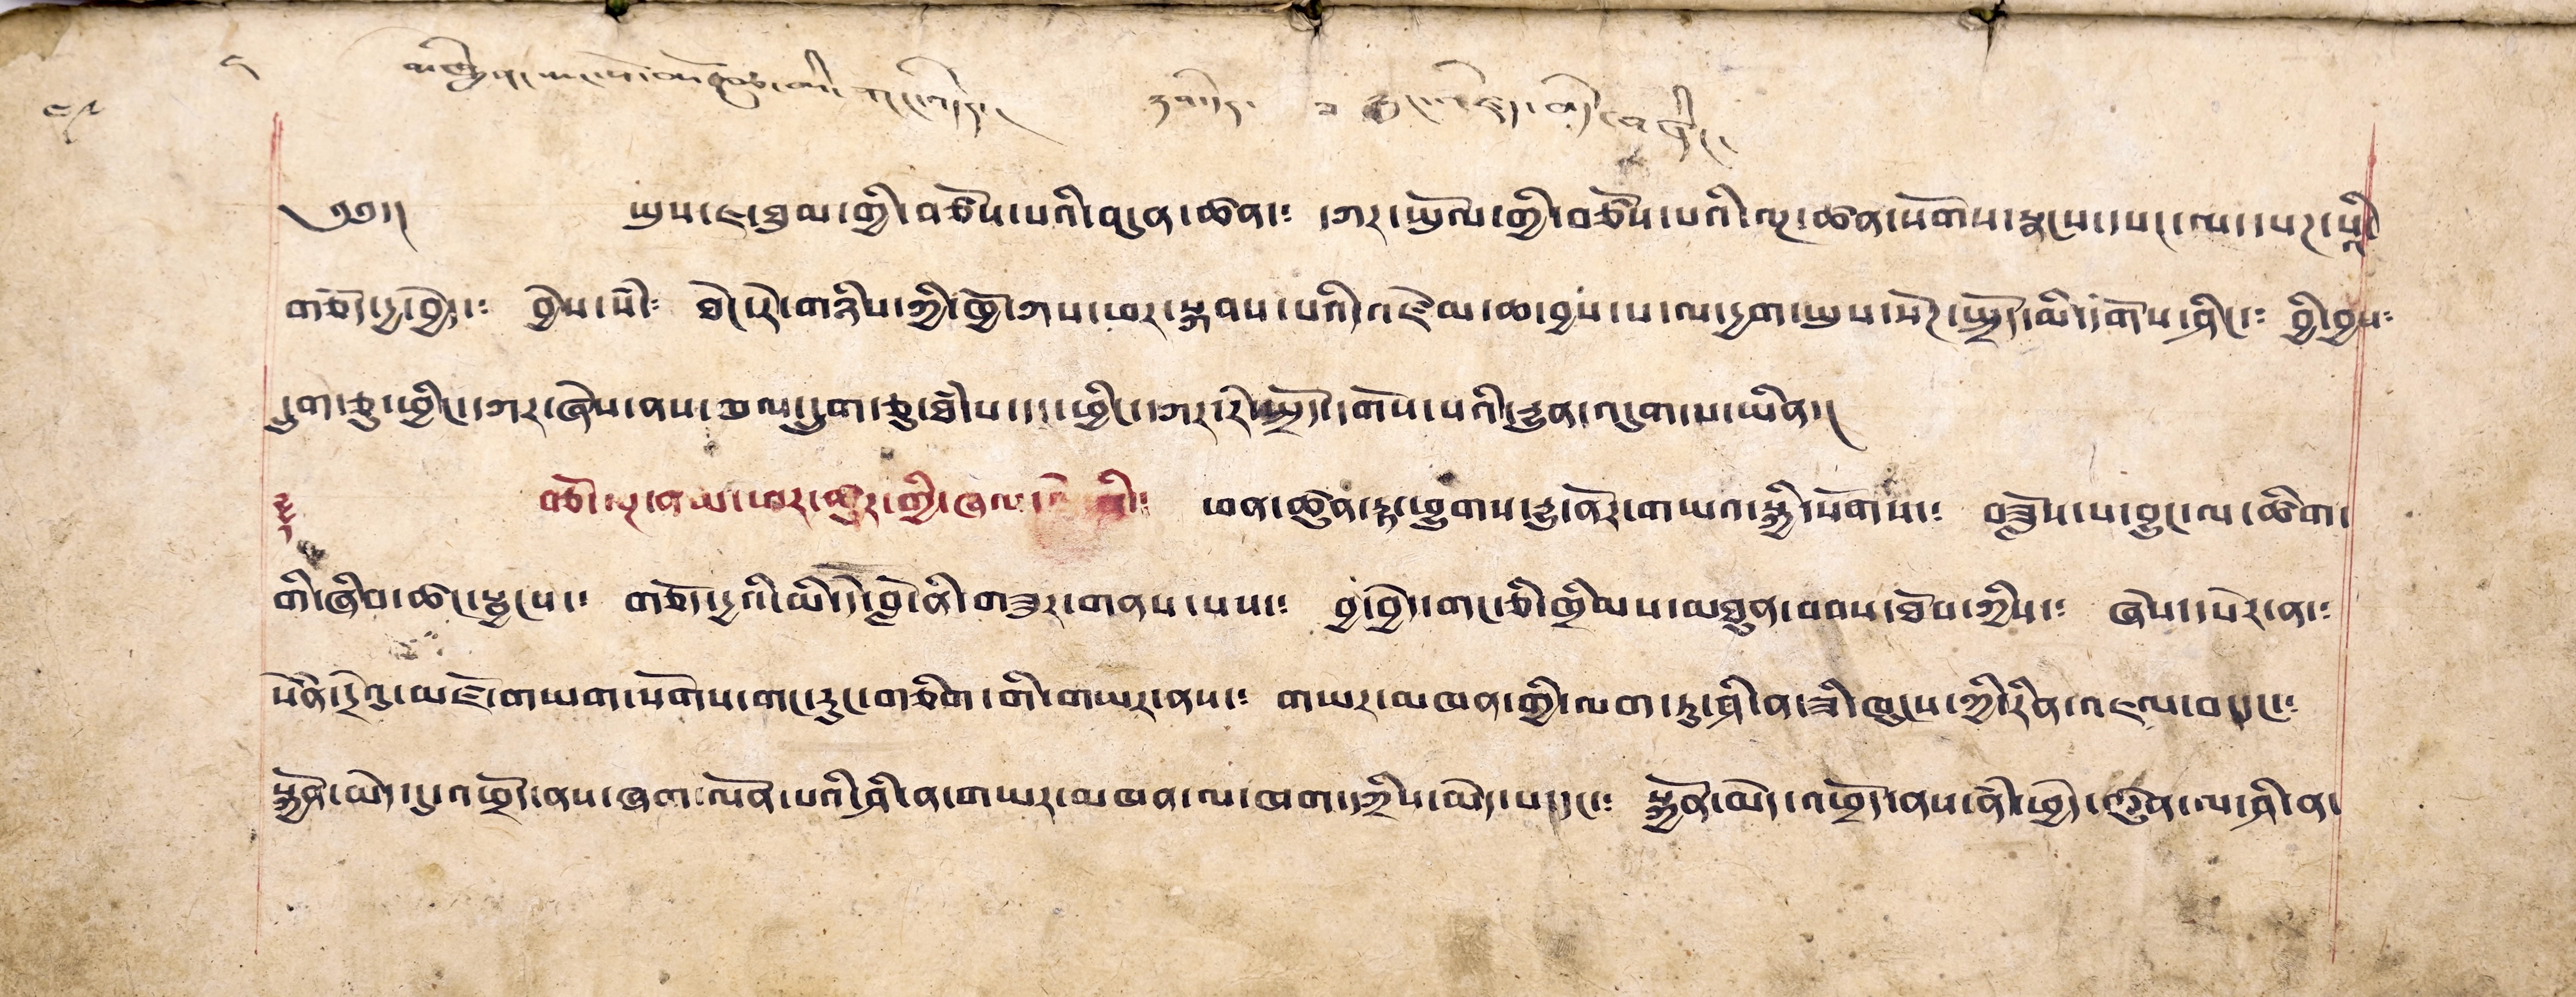༄༅།། ཡུས་ཇ་ཐུམ་གྱི་བཙོས་པའི་བདུན་ཚན་༴ དཀར་སྤྲོལ་གྱི་བཙོས་པའི་ལྔ་ཚན་སོགས་སྣངས་དཔང་ལ་དཔཊ་སའི་
གཅོད་དྱ་བྱེད་༴ བྱེས་སཾ་༴ ཐེང་རེ་གཉིས་ཀྱི་ཁྱོ་ཀས་ཕར་སྐབས་པའི་འཛོམ་ཆ་བྱས་པ་ལ་དྱག་ཡུས་སོཊ་སྤྲོད་མི་དགོས་ཤིང་༴ བྱི་བྱས༴
དྲུག་ཅུ་ཕྱིང་དཀར་ཞེས་ནས་ཁལ་དྲུག་ཅུ་ཐཾ་པ་དང་ཕྱིང་དཀར་རེ་སྤྲོད་དགོས་པའི་དྱུན་འདུག་པ་ཡིན།།
༈ བཅོ་ལྔ་ནམ་ཕར་ཚུར་གྱི་ཞལ་ལྕེ་ནི་༴ ཕན་ཚུན་རྟ་ཕྱུགས་རྒྱུ་ནོར་གཡའ་སྐྱི་སོགས་༴ བཟློས་པ་བྱུང་ལ་ཚིག་
གི་ཞིབ་ཚང་སྦྱངས་༴ གཅོད་དྱའི་མི་དེ་བློ་ནི་གཟུར་གནས་པས་༴ བྱ་བྱེད་གང་ཅི་ཁྲིམས་མཐུན་བབས་ཐོབ་ཀྱིས་༴ ཞེས་དཔེར་ན་༴
སེཾན་དྲེའུ་མཛོ་གཡག་སོགས་གང་རུང་གཅིག་གི་གཡར་ནས་༴ གཡར་མཁན་གྱི་ལག་ཏུ་ཤི་ན་ཟི་ཁུངས་ཀྱི་རིན་འཇལ་བ་དང་༴
སྐྱོན་མེད་དུ་འཕྲོད་ནས་ཞག་ལོན་པའི་ཤི་ན་གཡར་མཁན་ལ་ཁག་དཀྲིས་མེད་པ་དང་༴ སྐྱོན་མེད་འཕྲོད་ནས་ནཾ་ཕྱེད་ཚུན་ལ་ཤི་ན་
